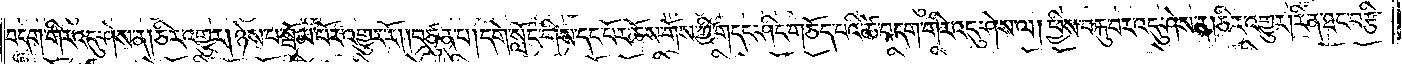བདག་གིར་འདུ་ཤེས་ན། ཅིར་འགྱུར། ཉེས་པ་སྦོམ་པོར་འགྱུར་རོ། །བཙུན་པ། དགེ་སློང་གིས་དང་པོར་ཆོས་གོས་ཀྱི་གདང་ཤིང་གཅོད་པའི་ཚེ་བདག་གིར་འདུ་ཤེས་ལ། ཕྱིས་བརྐུ་བར་འདུ་ཤེས་ན། ཅིར་འགྱུར། རིན་ཐང་བརྩི་
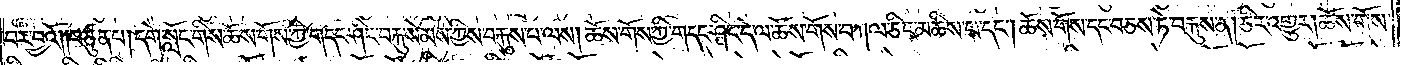བར་བྱའོ། །བཙུན་པ། དགེ་སློང་གིས་ཆོས་གོས་ཀྱི་གདང་ཤིང་བརྐུ་སེམས་ཀྱིས་བརྐུས་པ་ལས། ཆོས་གོས་ཀྱི་གདང་ཤིང་དེ་ལ་ཆོས་གོས་བཀལ་ཅིང་མཆིས་པ་དང༌། ཆོས་གོས་དང་བཅས་ཏེ་བརྐུས་ན། ཅིར་འགྱུར། ཆོས་གོས་
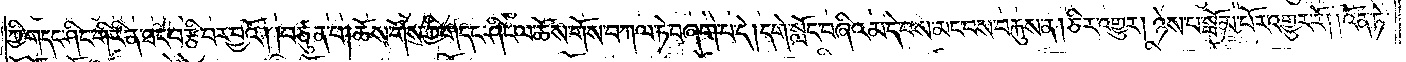ཀྱི་གདང་ཤིང་གི་རིན་ཐང་བརྩི་བར་བྱའོ། །བཙུན་པ། ཆོས་གོས་ཀྱི་གདང་ཤིང་ལ་ཆོས་གོས་བཀལ་ཏེ་བཞག་པ་དེ། དགེ་སློང་བཞིའམ་དེ་བས་མང་བས་བརྐུས་ན། ཅིར་འགྱུར། ཉེས་པ་སྦོམ་པོར་འགྱུར་རོ། །འོན་ཏེ་
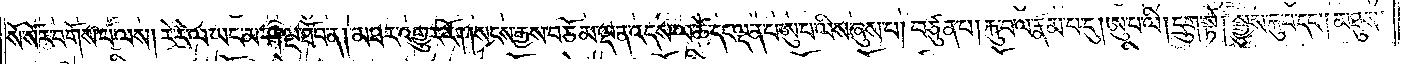སོ་སོར་བགོས་པ་ལས། རེ་རེ་ལ་ཡང་མ་ཤ་ལྔ་ཐོབ་ན། མཐར་འགྱུར་རོ། །སངས་རྒྱས་བཅོམ་ལྡན་འདས་ལ་ཚེ་དང་ལྡན་པ་ཨུ་པ་ལིས་ཞུས་པ། བཙུན་པ། རྐུ་བ་ལ་རྣམ་པ་དུ། ཨུ་པ་ལི། དྲུག་སྟེ། སྒྱུས་རྐུ་བ་དང༌། མཐུས་
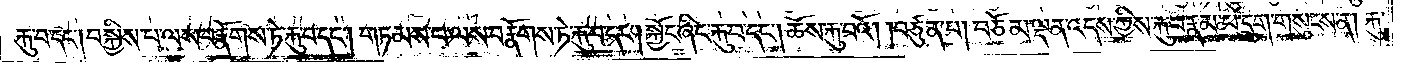རྐུ་བ་དང༌། བསྐྱིས་པ་ལས་བརྣོགས་ཏེ་རྐུ་བ་དང༌། གཏམས་པ་ལས་བརྣོགས་ཏེ་རྐུ་བ་དང༌། སྐྱོང་ཞིང་རྐུ་བ་དང༌། ཆོས་རྐུ་བའོ། །བཙུན་པ། བཅོམ་ལྡན་འདས་ཀྱིས་རྐུ་བ་རྣམ་པ་དྲུག་གསུངས་ན། རྐུ་
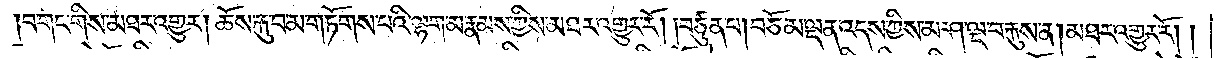བ་གང་གིས་མཐར་འགྱུར། ཆོས་རྐུ་བ་མ་གཏོགས་པའི་ལྷག་མ་རྣམས་ཀྱིས་མཐར་འགྱུར་རོ། །བཙུན་པ། བཅོམ་ལྡན་འདས་ཀྱིས་མ་ཤ་ལྔ་བརྐུས་ན། མཐར་འགྱུར་རོ། །
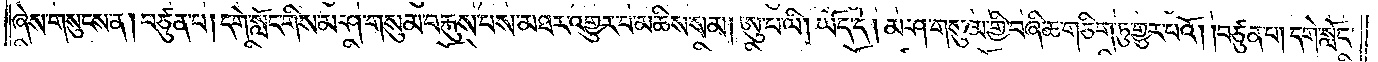ཞེས་གསུངས་ན། བཙུན་པ། དགེ་སློང་གིས་མ་ཤ་གསུམ་བརྐུས་པས་མཐར་འགྱུར་བ་མཆིས་སམ། ཨུ་པ་ལི། ཡོད་དེ། མ་ཤ་གསུམ་གྱི་བཞི་ཆ་གཅིག་ཏུ་གྱུར་པའོ། །བཙུན་པ། དགེ་སློང་
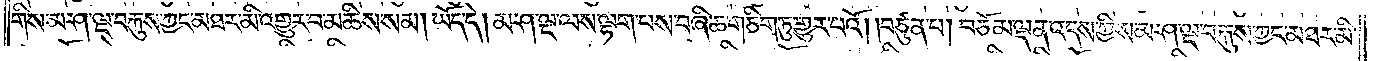གིས་མ་ཤ་ལྔ་བརྐུས་ཀྱང་མཐར་མི་འགྱུར་བ་མཆིས་སམ། ཡོད་དེ། མ་ཤ་ལྔ་ལས་ལྷག་པས་བཞི་ཆ་གཅིག་ཏུ་གྱུར་པའོ། །བཙུན་པ། བཅོམ་ལྡན་འདས་ཀྱིས་མ་ཤ་ལྔ་བརྐུས་ཀྱང་མཐར་མི་
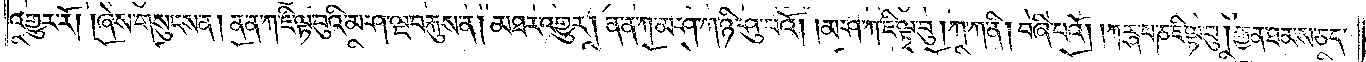འགྱུར་རོ། །ཞེས་གསུངས་ན། ན་ན་ཀ་ཇི་ལྟ་བུའི་མ་ཤ་ལྔ་བརྐུས་ན། མཐར་འགྱུར། ན་ན་ཀ་མ་ཤ་ཀ་ཉི་ཤུ་པའོ། །མ་ཤ་ཀ་ཇི་ལྟ་བུ། ཀ་ཀ་ནི། བཞི་པའོ། །ཀརྴ་པ་ཎ་ཇི་ལྟ་བུ། རྒྱན་ཐམས་ཅད་
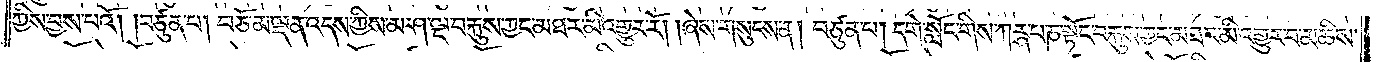ཀྱིས་བྱས་པའོ། །བཙུན་པ། བཅོམ་ལྡན་འདས་ཀྱིས་མ་ཤ་ལྔ་བརྐུས་ཀྱང་མཐར་མི་འགྱུར་རོ། །ཞེས་གསུངས་ན། བཙུན་པ། དགེ་སློང་གིས་ཀརྴ་པ་ཎ་སྟོང་བརྐུས་ཀྱང་མཐར་མི་འགྱུར་བ་མཆིས་
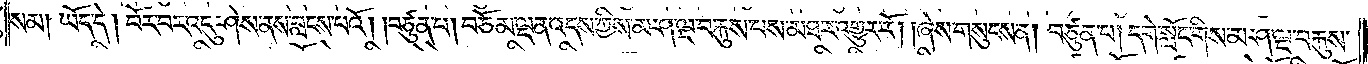སམ། ཡོད་དེ། བོར་བར་འདུ་ཤེས་ནས་བླངས་པའོ། །བཙུན་པ། བཅོམ་ལྡན་འདས་ཀྱིས་མ་ཤ་ལྔ་བརྐུས་པས་མཐར་འགྱུར་རོ། །ཞེས་གསུངས་ན། བཙུན་པ། དགེ་སློང་གིས་མ་ཤ་ལྔ་བརྐུས་
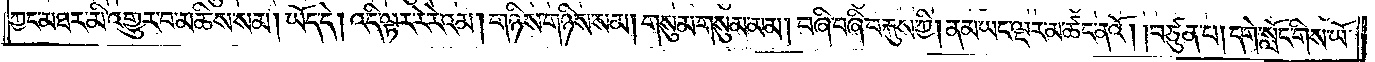ཀྱང་མཐར་མི་འགྱུར་བ་མཆིས་སམ། ཡོད་དེ། འདི་ལྟར་རེ་རེའམ། གཉིས་གཉིས་སམ། གསུམ་གསུམ་མམ། བཞི་བཞི་བརྐུས་ཀྱི། ནམ་ཡང་ལྔར་མ་ཚང་ནའོ། །བཙུན་པ། དགེ་སློང་གིས་ཡོ་
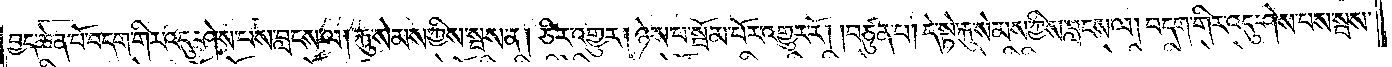བྱད་ཆེན་པོ་བདག་གིར་འདུ་ཤེས་པས་བླངས་ལ། རྐུ་སེམས་ཀྱིས་སྦས་ན། ཅིར་འགྱུར། ཉེས་པ་སྦོམ་པོར་འགྱུར་རོ། །བཙུན་པ། དེ་སྟེ་རྐུ་སེམས་ཀྱིས་བླངས་ལ། བདག་གིར་འདུ་ཤེས་པས་སྦས་
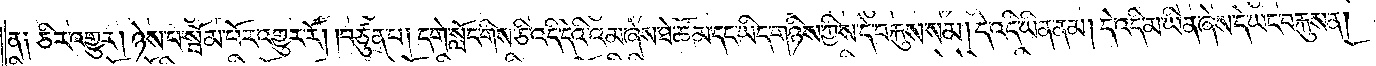ན༑ ཅིར་འགྱུར། ཉེས་པ་སྦོམ་པོར་འགྱུར་རོ། །བཙུན་པ། དགེ་སློང་གིས་ཅི་འདི་དེའི་འམ་ཞེས་ཐེ་ཚོམ་དང་ཡིད་གཉིས་ཀྱིས་དེ་བརྐུས་སམ། དེ་འདི་ཡིན་ནམ། དེ་འདི་མ་ཡིན་ཞེས་དེ་ཡང་བརྐུས་ན།
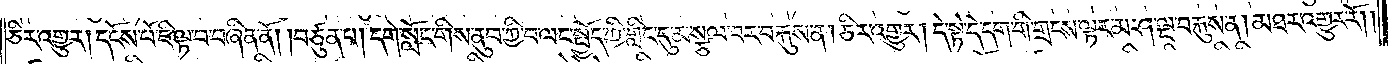ཅིར་འགྱུར། དངོས་པོ་ཇི་ལྟ་བ་བཞིན་ནོ། །བཙུན་པ། དགེ་སློང་གིས་ནུབ་ཀྱི་བ་ལང་སྤྱོད་ཀྱི་གླིང་དུ་མ་སྩལ་བར་བརྐུས་ན། ཅིར་འགྱུར། དེ་སྟེ་དེ་དག་གི་གྲངས་ལྟར་མ་ཤ་ལྔ་བརྐུས་ན། མཐར་འགྱུར་རོ། །
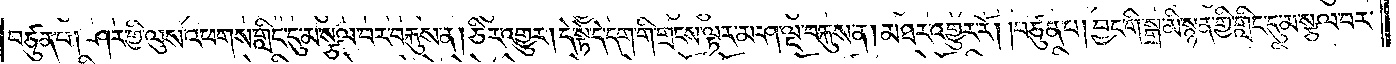བཙུན་པ། ཤར་གྱི་ལུས་འཕགས་གླིང་དུ་མ་སྩལ་པར་བརྐུས་ན། ཅིར་འགྱུར། དེ་སྟེ་དེ་དག་གི་གྲངས་ལྟར་མ་ཤ་ལྔ་བརྐུས་ན། མཐར་འགྱུར་རོ། །བཙུན་པ། བྱང་གི་སྒྲ་མི་སྙན་གྱི་གླིང་དུ་མ་སྩལ་བར་
